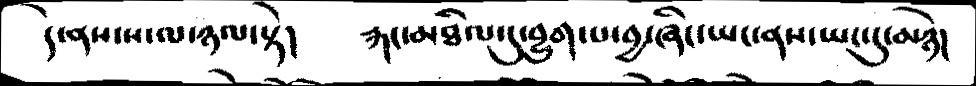དེ་ནས་ས་ལ་ཉལ་སྟེ   རྐང་མཐིལ་དུ་བྱུག་པ་བྱ་ཞིང་ཡང་ནས་ཡང་དུ་མཉེ།
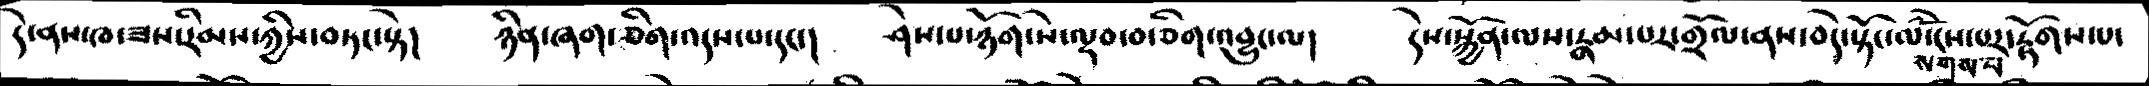དེ་ནས་ཁ་ཟས་རིམས་ཀྱིས་བཏང་སྟེ།   ཉིན་ཞག་ཅིག་འདས་པ་དང་།   ཤེས་པ་ཉོག་སེ་ལྡབ་བརྩིག་འབྱུང་ལ།   དེས་སྐྱོན་ལས་རྣམ་པར་གྲོལ་ནས་བདེ་སྟོང་ལསོགས་པ་ངེས་པར་རྟོགས་པ་
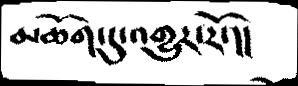མཆོག་དུ་འགྱུར་རོ་།།
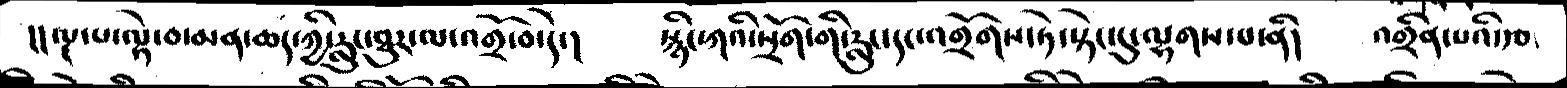།།ལྔ་པ་ལྟེ་བ་མན་ཆད་ཀྱི་རླུང་ཐུར་ལ་འགྲོ་བ་དེ་།   སྙིང་ཀའི་སྲོག་གི་རླུང་དང་འགྲོགས་ཏེ་སྟེང་དུ་ལྷགས་པ་ནི།   འགྲིན་པའི་རྩ་
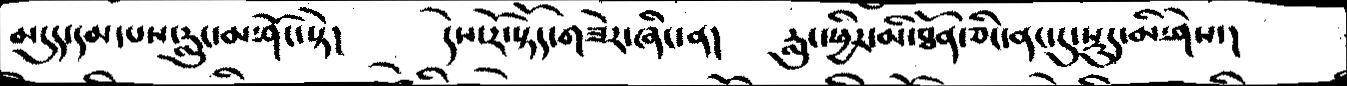མདུད་དམ་པས་རླུང་མ་ཤོང་སྟེ།   དེས་རོ་སྟོད་གཟེར་ཞིང་ན།   རླུང་ཕྱིར་མི་ཐོན་ཅིང་ནང་དུ་སྡུད་མི་ཤེས་།
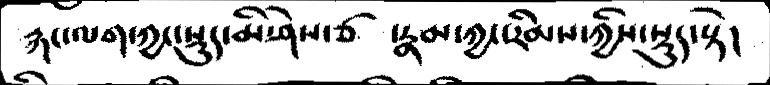རྐང་ལག་ཀྱང་སྡུད་མི་ཤེས་ཙ  ་རྣམ་ཀྱང་རིམས་ཀྱིས་སྡུད་སྟེ།
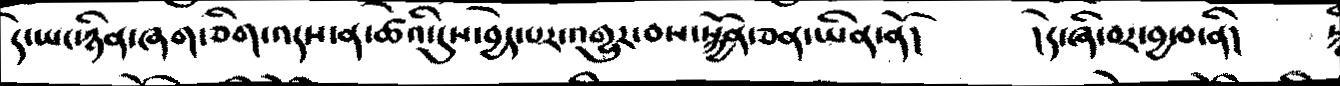དེ་ཡང་ཉིན་ཞག་ཅིག་འདས་ན་ཚེའི་དུས་བྱེད་པར་འགྱུར་བས་སྐྱོན་ཅན་ཡིན་ནོ།   །དེ་ཞི་བར་བྱ་བ་ནི།
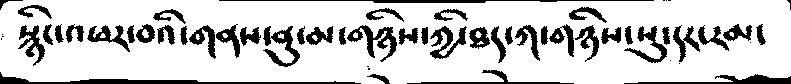སྙིང་འཕར་བའི་གནས་ནུ་མ་གཉིས་ཀྱི་ཐད་ཀ་གཉིས་སུ་དར་རམ་
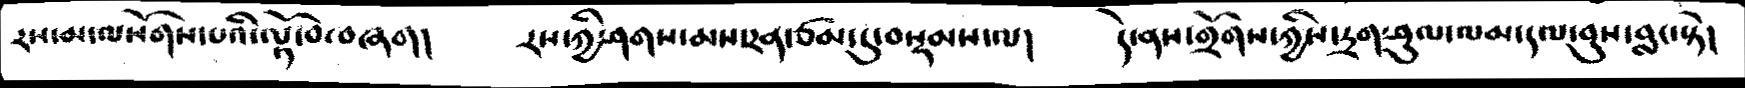རས་མ་ལསོགས་པའི་ལྟོ་བ་བཞག།   རས་ཀྱི་ཤགས་མས་དྲན་ཙམ་དུ་བསྡམས་ལ།   དེ་ནས་གྲོགས་ཀྱིས་དྲག་ཤུལ་ལམ་དལ་བུས་བླང་སྟེ།
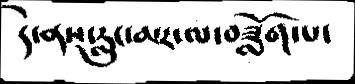དེ་ནས་རླུང་མར་ལ་བཟློག་པ་
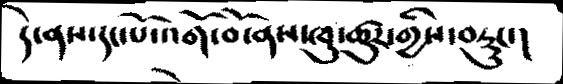དེ་ནས་དང་པོ་འགོ་བོ་ནས་ཁུ་ཚུར་གྱིས་བརྡུང་།
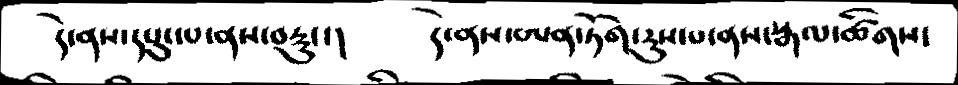དེ་ནས་དཔུང་པ་ནས་བརྡུང་།   དེ་་ནས་ཨན་ཏོག་རུས་པ་ནས་སྒལ་ཚིགས་
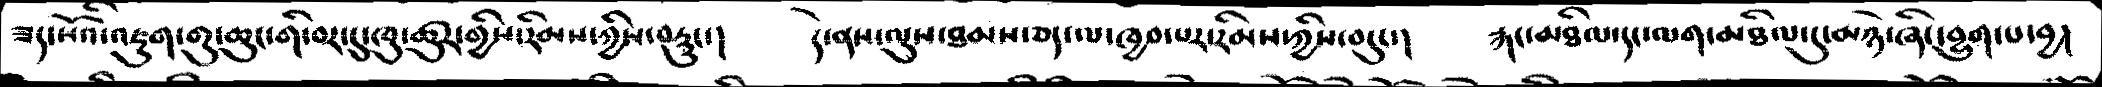ཟད་སོའི་འཇུག་གུ་ཆུང་གི་བར་དུ་ཁུ་ཚུར་གྱིས་རིམས་ཀྱིས་བརྡུང་།   དེ་ནས་ལུས་ཐམས་ཅད་ལ་ཁྱབ་པར་རིམས་ཀྱིས་བདུང་།   རྐང་མཐིལ་དང་ལག་མཐིལ་དུ་མཉེ་ཞིང་བྱུག་པ་བྱ།
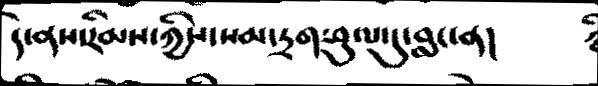དེ་ནས་རིམས་ཀྱིས་སམ་དྲག་ཤུལ་དུ་བླང་ན།
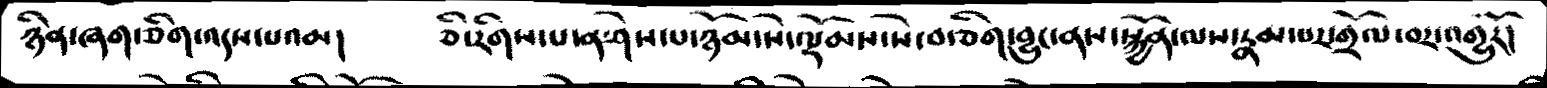ཉིན་ཞག་ཅིག་འདས་པའམ།   ཅི་རིགས་པ་ན་ཤེས་པ་ཉོམ་སེ་ལྡོམས་སེ་བརྩིག་བྱུང་ནས་སྐྱོན་ལས་རྣམ་པར་གྲོལ་བར་འགྱུརོ།
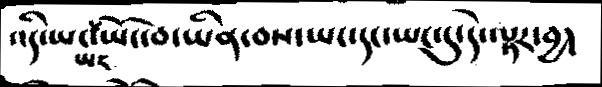འདི་ཡང་ཡང་ཡོང་བ་ཡིན་བས་ཡང་དང་ཡང་དུ་དེ་ལྟར་བྱ།
